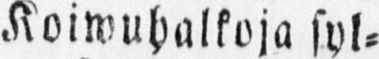Koiwuhalkoja syl-
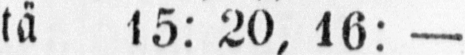tä 15: 20, 46: —
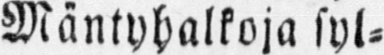Mäntyhalkoja syl-
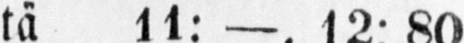tä 11: —, 12:80
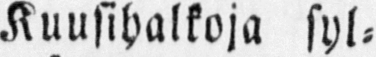Kuusihalkoja syl-
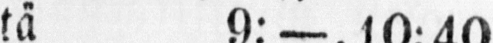tä 9: —, 10:40
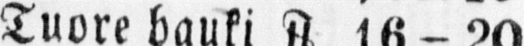Tuore hauki U+2114 16-20
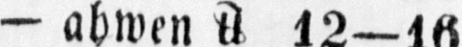- ahwen U+2114 12—16
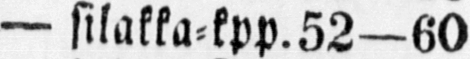— silakka-kpp.52— 60
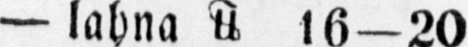— lahna U+2114 l6—20
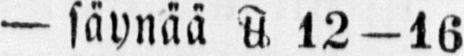— säynää U+2114 12-16
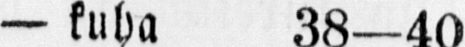— kuha 38—40
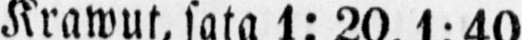Krawut, sata 1:20, 1:40
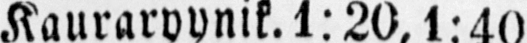Kauraryynik. 1:20, 1:40
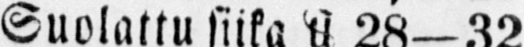Suolattu siika U+2114 28—32
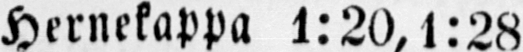Hernekappa 1:20, 1:28
